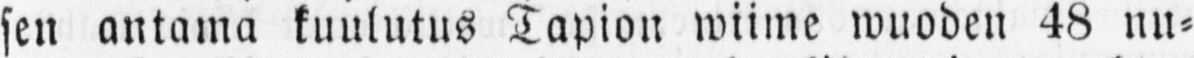sen antama kuulutus Tapion wiime wuoden 48 nu-
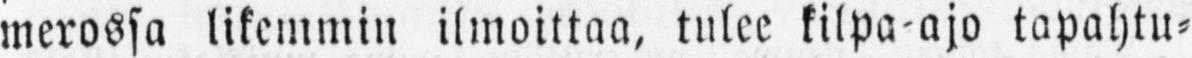merossa likemmin ilmoittaa, tulee kilpa-ajo tapahtu-
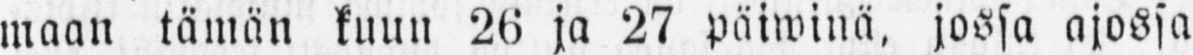maan tämän kuun 26 ja 27 Päiwinä. jossa ajossa
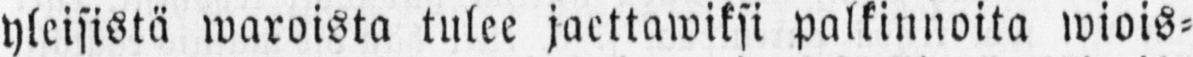yleisistä waroista tulee jaettawiksi palkinnoita wiois-
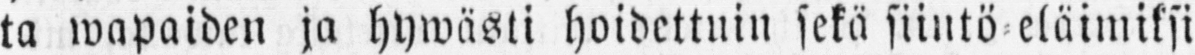ta wapaiden ja hywästi hoidettuin sekä siintö-eläimiksi
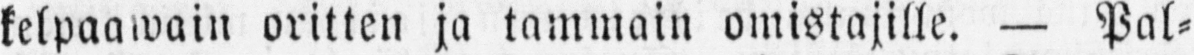kelpaawain oritten ja tammain omistajille. — Pal-
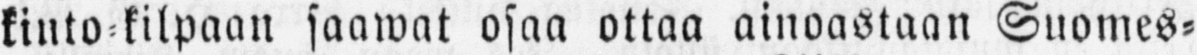kinto kilpaan saawat osaa ottaa ainoastaan Suomes-
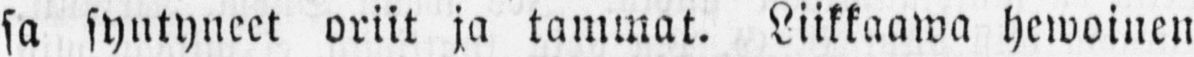sa syntyneet oriit ja tammat. Liikkaawa hewoinen
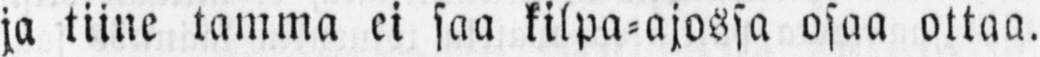ja tiine tamma ei saa kilpa-ajossa osaa ottaa.
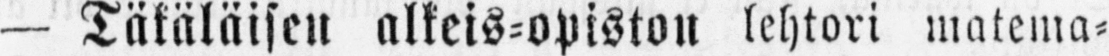— Täkäläisen alkeis-opiston lehtori matema-
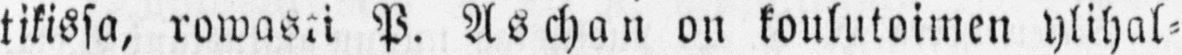tikissa, rowasti P. Aschan on koulutoimen ylihal-
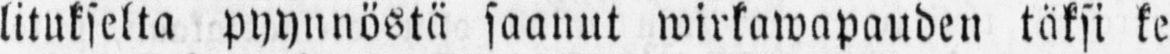litukselta pyynnöstä saanut wirkawapauden täksi ke-
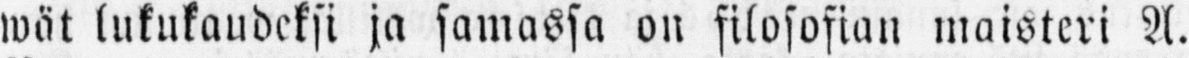wät lukukaudeksi ja samassa on filosofian maisteri A.
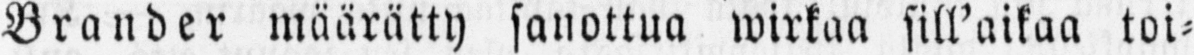Brander määrätty sanottua wirkaa sill'aikaa toi-
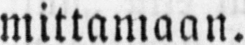mittamaan.
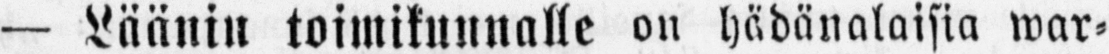— Läänin toimikunnalle on hädänalaisia war-
